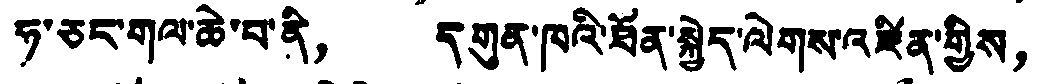ཧ་ཅང་གལ་ཆེ་བ་ནི， དགུན་ཁའི་ཐོན་སྐྱེད་ལེགས་འཛིན་གྱིས，
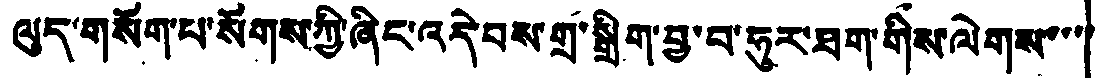ལུད་གསོག་པ་སོགས་ཀྱི་ཞིང་འདེབས་གྲ་སྒྲིག་བྱ་བ་ཧུར་ཐག་གིས་ལེགས་་་་
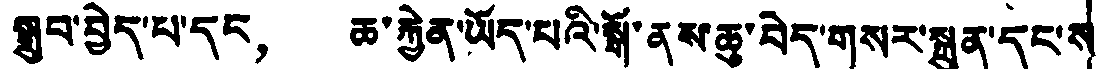སྒྲུབ་བྱེད་པ་དང， ཆ་རྐྱེན་ཡོད་པའི་སྒོ་ནས་ཆུ་བེད་གསར་སྐྲུན་དང་ས་
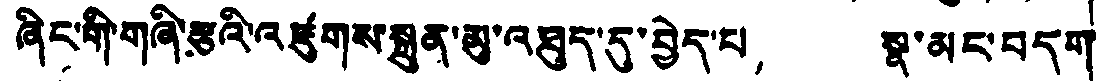ཞིང་གི་གཞི་རྩའི་འཛུགས་སྐྲུན་མུ་འཐུད་དུ་བྱེད་པ， སྣ་མང་བདག་
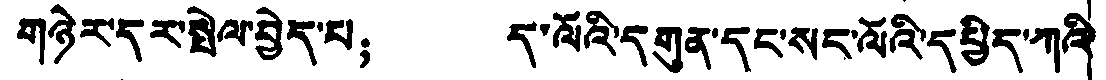གཉེར་དར་སྤེལ་བྱེད་པ； ད་ལོའི་དགུན་དང་སང་ལོའི་དཔྱིད་ཀའི་
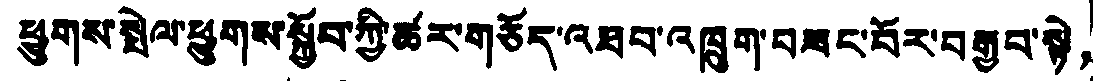ཕྱུགས་སྤེལ་ཕྱུགས་སྐྱོབ་ཀྱི་ཚར་གཅོད་འཐབ་འཁྲུག་བཟང་པོར་བརྒྱབ་སྟེ，
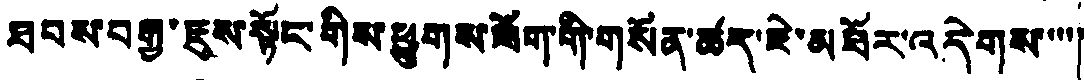ཐབས་བརྒྱ་ཇུས་སྟོང་གིས་ཕྱུགས་ཟོག་གི་གསོན་ཚད་རེ་མཐོར་འདེགས་་་་
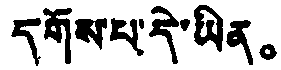དགོས་པ་དེ་ཡིན。
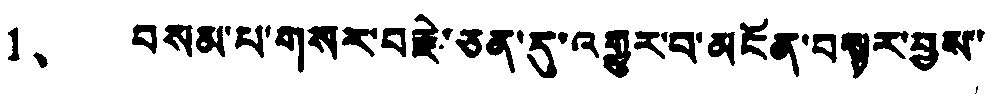1、 བསམ་པ་གསར་བརྗེ་ཅན་དུ་འགྱུར་བ་མངོན་བསྟར་བྱས་
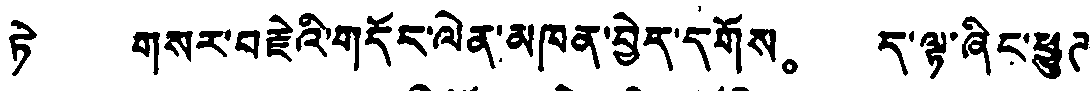ཏེ གསར་བརྗེའི་གདོང་ལེན་མཁན་བྱེད་དགོས。 ད་ལྟ་ཞིང་ཕྱུཊ་
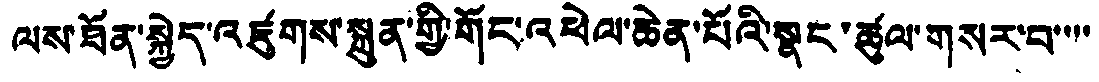ལས་ཐོན་སྐྱེད་འཛུགས་སྐྲུན་གྱི་གོང་འཕེལ་ཆེན་པོའི་སྣང་ཚུལ་གསར་བ་་་་
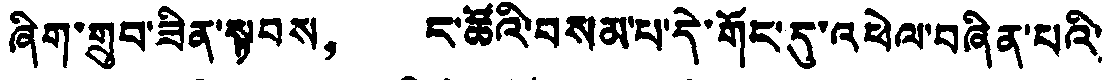ཞིག་གྲུབ་ཟིན་སྟབས， ང་ཚོའི་བསམ་པ་དེ་གོང་དུ་འཕེལ་བཞིན་པའི་
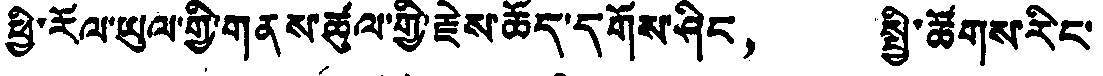ཕྱི་རོལ་ཡུལ་གྱི་གནས་ཚུལ་གྱི་རྗེས་ཆོད་དགོས་ཤིང， སྤྱི་ཚོགས་རིང་
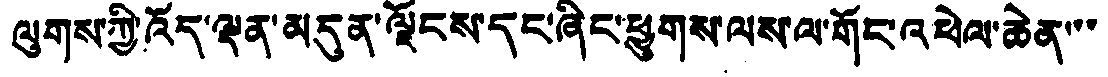ལུགས་ཀྱི་འོད་ལྡན་མདུན་ལྗོངས་དང་ཞིང་ཕྱུགས་ལས་ལ་གོང་འཕེལ་ཆེན་་་
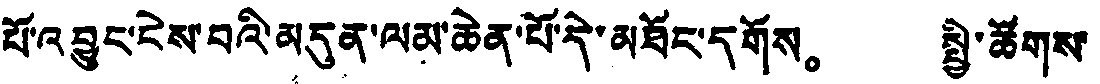པོ་འབྱུང་ངེས་པའི་མདུན་ལམ་ཆེན་པོ་དེ་མཐོང་དགོས。 སྤྱི་ཚོགས་
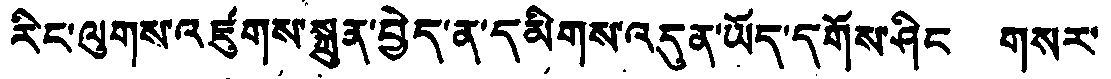རིང་ལུགས་འཛུགས་སྐྲུན་བྱེད་ན་དམིགས་འདུན་ཡོད་དགོས་ཤིང གསར་
